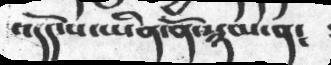འདོད་པ་ཡིན་ནོ་སྙམ་ན༴
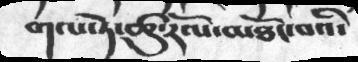གལ་ཏེ་ཚུ་རོལ་མཐོང་བའི་
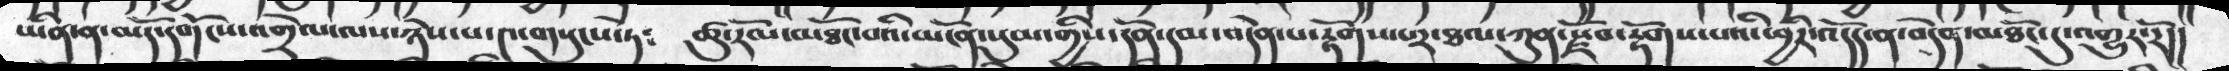ཡིན་ན་མདོ་དགོངས་འགྲེལ་ལས་ཉེས་པ་༤་གསུངས་ཏེ༴  ཚུ་རོལ་མཐོང་བའི་མངོན་སུམ་གྱིས་དོན་དམ་བདེན་པ་རྟོག་པར་ཐལ་ཀུན་སྫོབ་རྡོགས་པའི་ཕྱིར་འདོད་ན་བདེན་མཐོང་དུ་འགྱུར་རོ།།
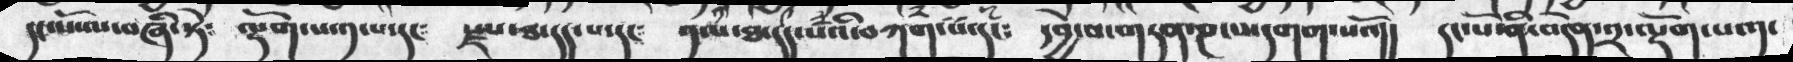དང་པོ་ལ་བཞི་སྟེ༴   ལྡོག་པ་༡་པ་དང༴  སྫས་ཐ་དད་པ་དང   ནལ་ཐ་དད་པའི་བཀག་པ་དང༴  དབྱེ་བ་གཏན་ཎ་པ་དགག་པའོ།།   དང་པོ་ནི་བདེན་༢་ལྡོག་པ་༡་
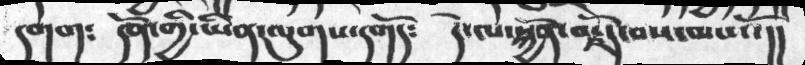དགག༴   དོན་གྱི་ཡིན་ལུགས་དགོད༴   དེ་ལ་སྐྱོན་བརྗོད་བས་མས་ངོ་།།
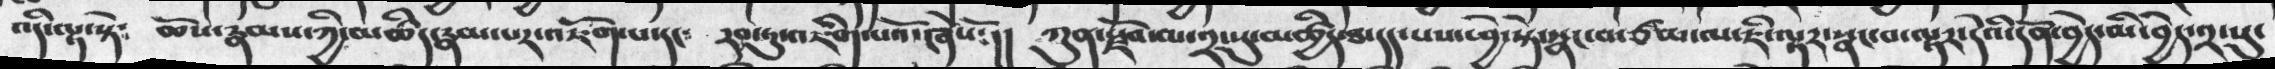འདི་ལྟ་སྟེ༴   ཆོས་རྣམས་ཀྱི་མཚིད་རྣམ་པར་འཇོག་པ་དང༴   རབ་ཏུ་འཇིག་པའོ་ཞེསོ་།།  ཀུན་སྫོབ་ལ་༢་སུ་མཚིད་ཐ་དད་པས་ཕྱེ་སྟེ་སྣང་བ་ཙམ་ལ་ཇི་ལྟར་སྣང་བ་ལྟར་དེའི་དོན་བྱེད་མི་བྱེད་༢་སུ་
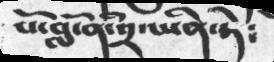པོ་བློ་ནི་༢་ཡིན་ཏེ༴
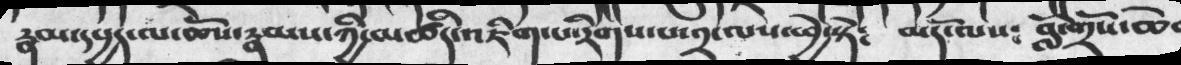རྣམ་དཔྱད་ལ་ཆོས་རྣམས་ཀྱི་མཚིད་འཇིག་པ་རིགས་པ་༢་ལས་ཕྱེ་སྟེ༴   མདོ་ལས༴  བློ་གྲོས་ཆེ
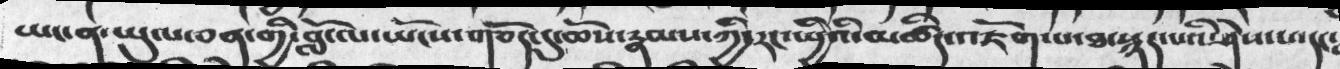ཡང་ན་ཡུལ་ཅན་གྱི་བློ་ལ་ཡོངས་གཅོད་དུ་ཆོས་རྣམས་ཀྱི་རང་སྤྱིའི་མཚིད་འཇོག་པ་ཐ་སྙད་པའི་ཤེས་ཕ་དང༴
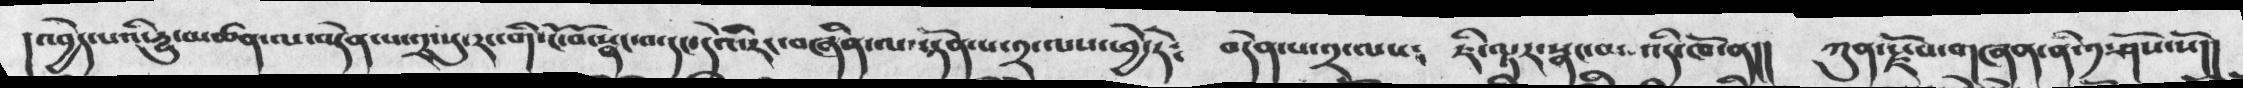།  འབྱེད་པའི་དྱུ་མཚན་ལ་བདེན་པ་༢་སུ་རང་གི་ངོ་བོ་སྣང་བ་དང་དེའི་རང་བཞིན་ལ་སྟོན་པ་༢་ལས་ཕྱེ་དེ༴  བདེན་པ་༢་ལས༴ ཇི་ལྟར་སྣང་བ་འདི་ཁོ་ན།།   ཀུན་སྫོབ་གཞན་ནི་༡་ཤོས་སོ།།
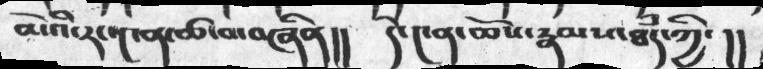མདོའི་རང་༤ན་ཚ་བ་བཞིན་།།   དེ་༤ན་ཆོས་རྣམས་ཐཾད་ཀྱི་།།
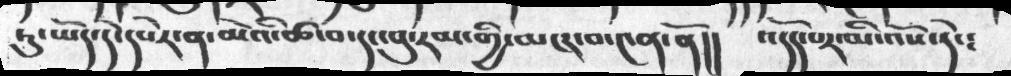ཏུ་ཡོད་དེ་དཔེར་ན་མེའི་ཚ་བ་དང་བུ་རམ་གྱི་མངར་བ་༤ན་ནོ།།   འདོད་པར་མི་འོས་དེ་༴
